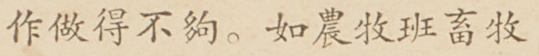做得不夠。如農牧班畜牧
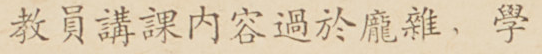教員講課內容過於龐雜，學
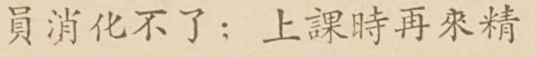員消化不了；上課時再來精
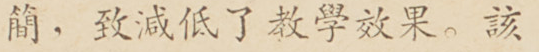簡，致減低了教學效果。該
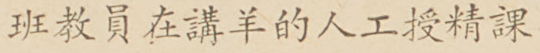班教員在講羊的人工授精課
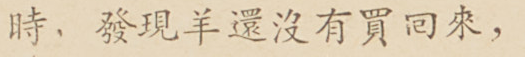時，發現羊還沒有買囘來，
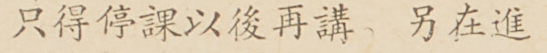只得停課以後再講，另在進
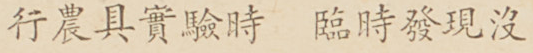行農具實驗時，臨時發現沒
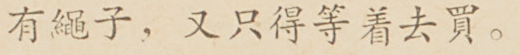有繩子，又只得等着去買。
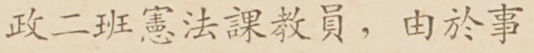政二班憲法課教員，由於事
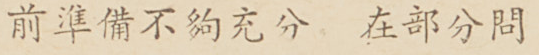前準備不夠充分，在部分問
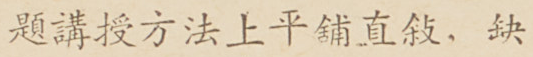題講授方法上平鋪直敍，缺
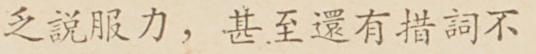乏說服力，甚至還有措詞不
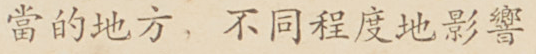當的地方，不同程度地影響
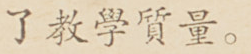了教學質量。
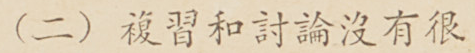（二）複習和討論沒有很
